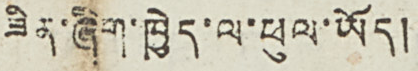ཟིན་ཞིག་ཁྱེད་ལ་ཕུལ་ཡོད།
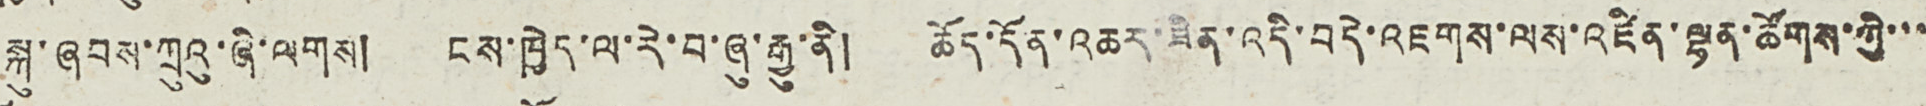སྐུ་ཞབས་ཀྲུའུ་ཞི་ལགས། ངས་ཁྱེད་ལ་རེ་བ་ཞུ་རྒྱུ་ནི། ཆོད་དོན་འཆར་ཟིན་འདི་བདེ་འཇགས་ལས་འཛིན་ལྷན་ཚོགས་ཀྱི་་་
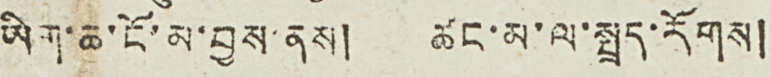ཡིག་ཆ་ངོ་མ་བྱས་ནས། ཚང་མ་ལ་སྤྲད་རོགས།
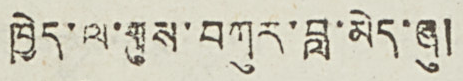ཁྱེད་ལ་གུས་བཀུར་བླ་མེད་ཞུ།
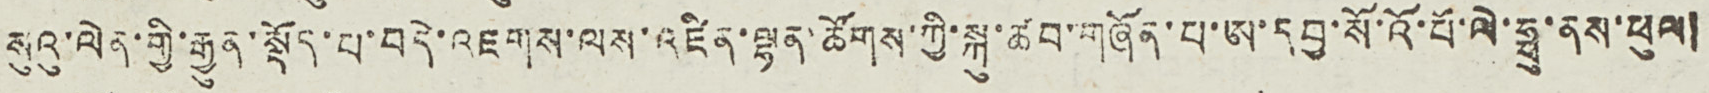སུའུ་ལེན་གྱི་རྒྱུན་སྡོད་པ་བདེ་འཇགས་ལས་འཛིན་ལྷན་ཚོགས་ཀྱི་སྐུ་ཚབ་གཞོན་པ་ཨ་དབྱ་སོ་འོ་པོ་ལེ་ཧྥུ་ནས་ཕུལ།
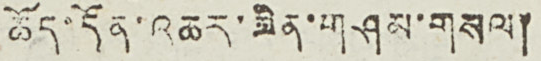ཆོད་དོན་འཆར་ཟིན་གཤམ་གསལ།
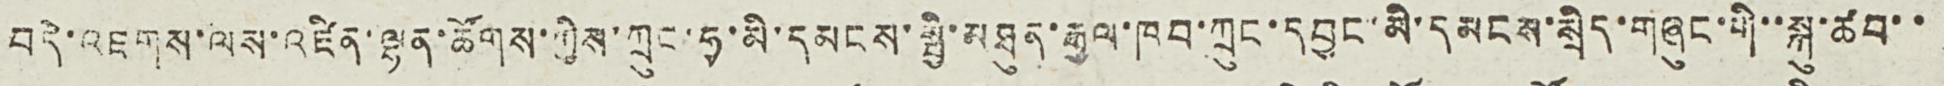བདེ་འཇགས་ལས་འཛིན་ལྷན་ཚོགས་ཀྱིས་ཀྲུང་ཧྭ་མི་དམངས་སྤྱི་མཐུན་རྒྱལ་ཁབ་ཀྲུང་དབྱང་མི་དམངས་སྲིད་གཞུང་གི་་སྐུ་ཚབ་་
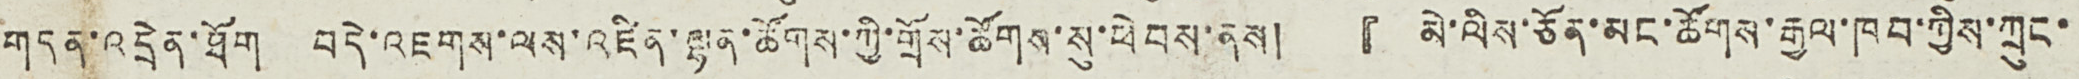གདན་འདྲེན་ཐོག བདེ་འཇགས་ལས་འཛིན་ལྷན་ཚོགས་ཀྱི་གྲོས་ཚོགས་སུ་ཕེབས་ནས། 『 མེ་ལིས་ཅོན་མང་ཚོསས་རྒྱལ་ཁབ་ཀྱིས་ཀྲུང་
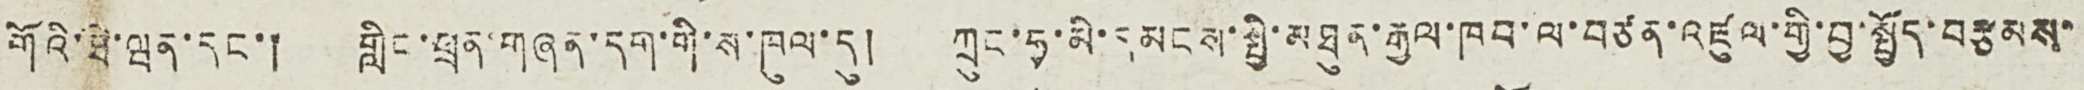གོའི་ཐེ་ཝན་དང་། གླིང་ཕྲན་གཞན་དག་གི་ས་ཁུལ་དུ། ཀྲུང་ཧྭ་མི་དམངས་སྤྱི་མཐུན་རྒྱལ་ཁབ་ལ་བཙན་འཛུལ་གྱི་བྱ་སྤྱོད་བརྩམས་
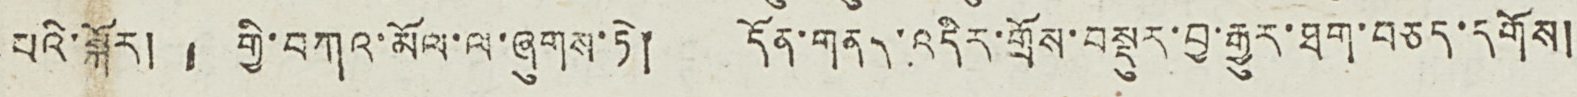པའི་སྐོར། 』གྱི་བཀའ་མོལ་ལ་ཞུགས་ཏེ། དོན་གནད་འདིར་གྲོས་བསྡུར་བྱ་རྒྱུར་ཐག་བཅད་དགོས།
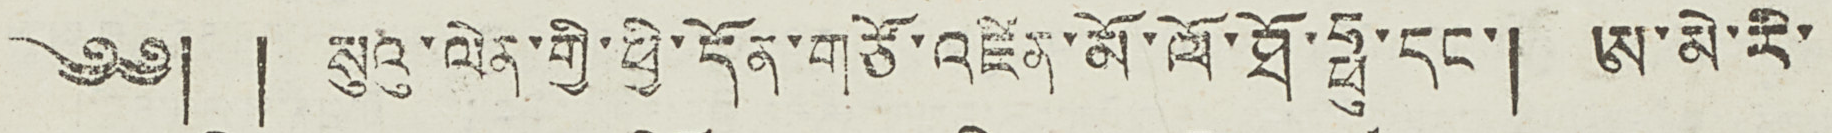༄༅། ། སུའུ་ལེན་གྱི་ཕྱི་དོན་གཙོ་འཛིན་མོ་ལོ་ཐོ་ཧྥུ་དང་། ཨ་མེ་རི་
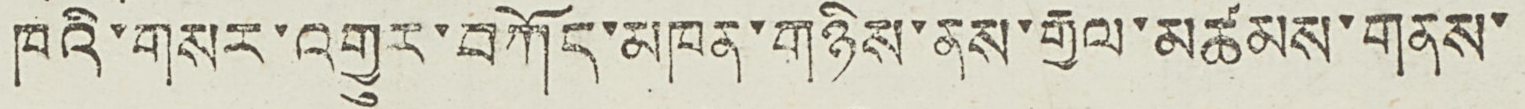ཁའི་གསར་འགྱུར་བཀོད་མཁན་གཉིས་ནས་རྒྱལ་མཚམས་གནས་
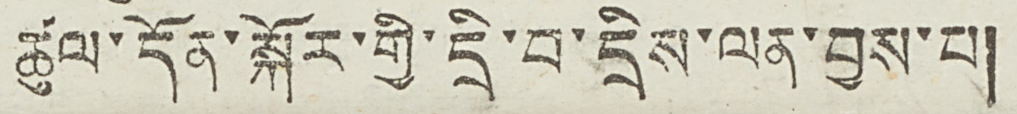ཚུལ་དོན་སྐོར་གྱི་དྲི་བ་དྲིས་ལན་བྱས་པ།
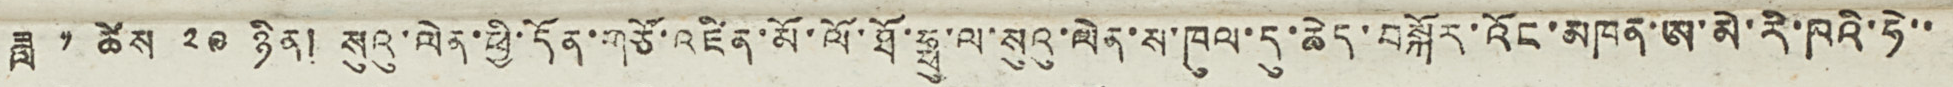ཟླ ༡ ཚེས ༢༩ ཉིན། སུའུ་ལེན་ཕྱི་དོན་གཙོ་འཛིན་མོ་ལོ་ཐོ་ཧྥུ་ལ་སུའུ་ལེན་ས་ཁུལ་དུ་ཆེད་བསྐོར་འོང་མཁན་ཨ་མེ་རི་ཁའི་ཧེ་་
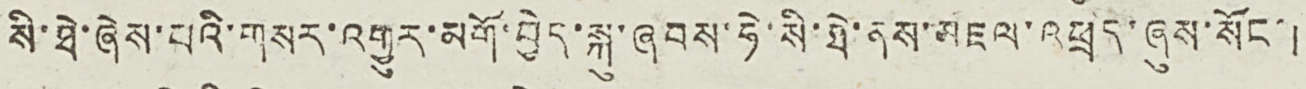སི་ཐེ་ཞེས་པའི་གསར་འགྱུར་མགོ་བྱེད་སྐུ་ཞབས་ཧེ་སི་ཐེ་ནས་མཇལ་འཕྲད་ཞུས་སོང་།
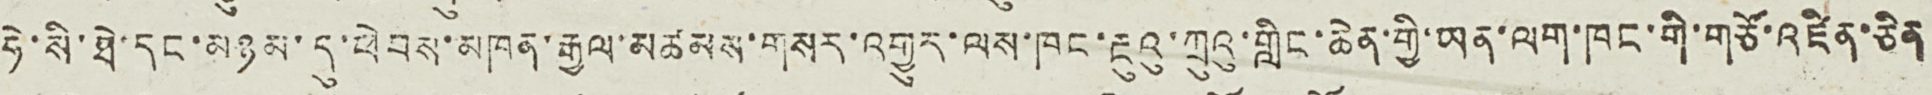ཧེ་སི་ཐེ་དང་མཉམ་དུ་ཕེབས་མཁན་རྒྱལ་མཚམས་གསར་འགྱུར་ལས་ཁང་རྔུའུ་ཀྲུའུ་གླིང་ཆེན་གྱི་ཡན་ལག་ཁང་གི་གཙོ་འཛིན་ཅིན
